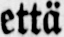että
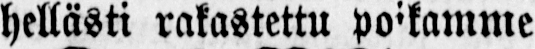hellästi rakastettu poikamme
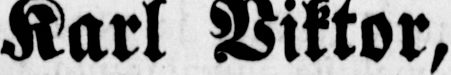Karl Viktor,
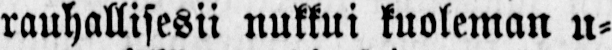rauhallisesti nukkui kuoleman u-
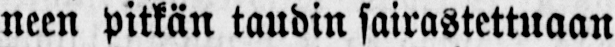neen pitkän taudin sairastettuaan
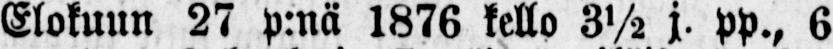Elokuun 27 p:nä 1876 kello 3½ j. PP., 6
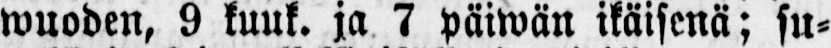wuoden, 9 kuuk. ja 7 päiwän ikäisenä; su-
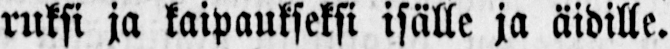ruksi ja kaipaukseksi isälle ja äidille.
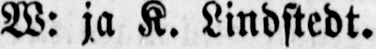W: ja K. Lindstedt.
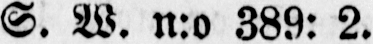S. W. n:o 389: 2.
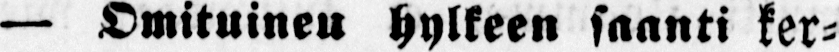— Omituinen hylkeen saanti ker-
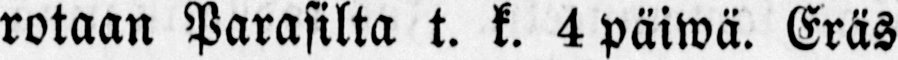rotaan Parasilta t. k. 4 päiwä. Eräs
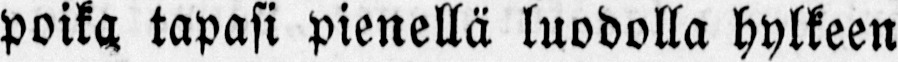poika tapasi pienellä luodolla hylkeen
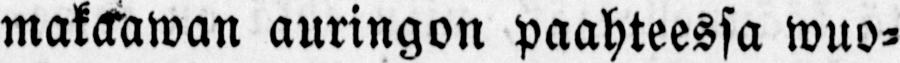makaawan auringon paahteessa wuo-
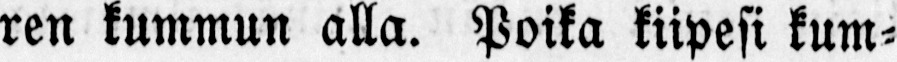ren kummun alla. Poika kiipesi kum-
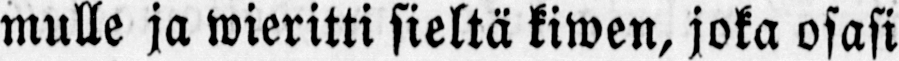mulle ja wieritti sieltä kiwen, joka osasi
